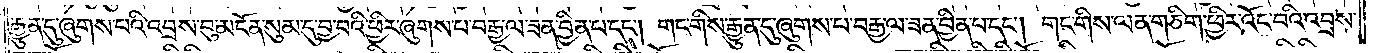རྒྱུན་དུ་ཞུགས་པའི་འབྲས་བུ་མངོན་སུམ་དུ་བྱ་བའི་ཕྱིར་ཞུགས་པ་བརྒྱ་ལ་ཟན་བྱིན་པ་དང༌། གང་གིས་རྒྱུན་དུ་ཞུགས་པ་བརྒྱ་ལ་ཟན་བྱིན་པ་དང༌། གང་གིས་ལན་གཅིག་ཕྱིར་འོང་བའི་འབྲས་
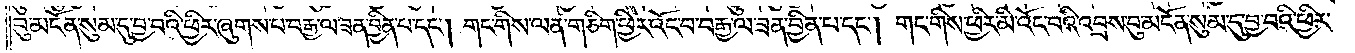བུ་མངོན་སུམ་དུ་བྱ་བའི་ཕྱིར་ཞུགས་པ་བརྒྱ་ལ་ཟན་བྱིན་པ་དང༌། གང་གིས་ལན་གཅིག་ཕྱིར་འོང་བ་བརྒྱ་ལ་ཟན་བྱིན་པ་དང༌། གང་གིས་ཕྱིར་མི་འོང་བའི་འབྲས་བུ་མངོན་སུམ་དུ་བྱ་བའི་ཕྱིར་
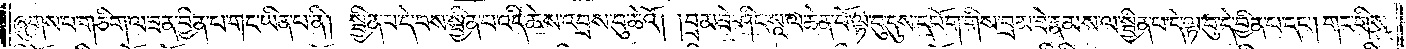ཞུགས་པ་གཅིག་ལ་ཟན་བྱིན་པ་གང་ཡིན་པ་ནི། སྦྱིན་པ་དེ་བས་སྦྱིན་པ་འདི་ཆེས་འབྲས་བུ་ཆེའོ། །བྲམ་ཟེ་ཤིང་སཱ་ལ་ཆེན་པོ་ལྟ་བུ་དུས་དཔོག་གིས་བྲམ་ཟེ་རྣམས་ལ་སྦྱིན་པ་དེ་ལྟ་བུ་དེ་བྱིན་པ་དང༌། གང་གིས་
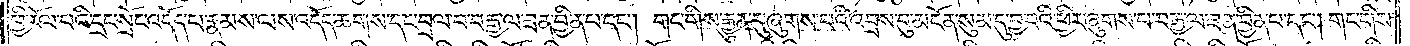ཕྱི་རོལ་པའི་དྲང་སྲོང་འདོད་པ་རྣམས་ལས་འདོད་ཆགས་དང་བྲལ་བ་བརྒྱ་ལ་ཟན་བྱིན་པ་དང༌། གང་གིས་རྒྱུན་དུ་ཞུགས་པའི་འབྲས་བུ་མངོན་སུམ་དུ་བྱ་བའི་ཕྱིར་ཞུགས་པ་བརྒྱ་ལ་ཟན་བྱིན་པ་དང༌། གང་གིས་
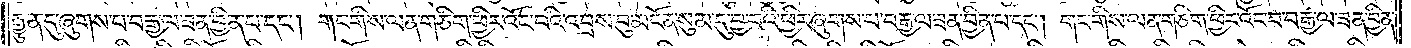རྒྱུན་དུ་ཞུགས་པ་བརྒྱ་ལ་ཟན་བྱིན་པ་དང༌། གང་གིས་ལན་གཅིག་ཕྱིར་འོང་བའི་འབྲས་བུ་མངོན་སུམ་དུ་བྱ་བའི་ཕྱིར་ཞུགས་པ་བརྒྱ་ལ་ཟན་བྱིན་པ་དང༌། གང་གིས་ལན་གཅིག་ཕྱིར་འོང་བ་བརྒྱ་ལ་ཟན་བྱིན་
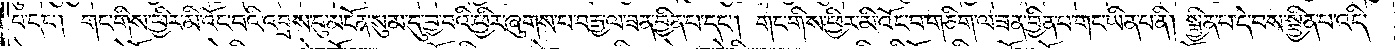པ་དང༌། གང་གིས་ཕྱིར་མི་འོང་བའི་འབྲས་བུ་མངོན་སུམ་དུ་བྱ་བའི་ཕྱིར་ཞུགས་པ་བརྒྱ་ལ་ཟན་བྱིན་པ་དང༌། གང་གིས་ཕྱིར་མི་འོང་བ་གཅིག་ལ་ཟན་བྱིན་པ་གང་ཡིན་པ་ནི། སྦྱིན་པ་དེ་བས་སྦྱིན་པ་འདི་
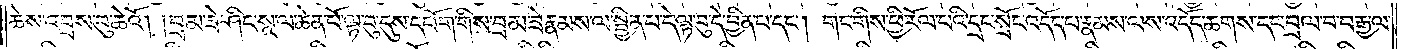ཆེས་འབྲས་བུ་ཆེའོ། །བྲམ་ཟེ་ཤིང་སཱ་ལ་ཆེན་པོ་ལྟ་བུ་དུས་དཔོག་གིས་བྲམ་ཟེ་རྣམས་ལ་སྦྱིན་པ་དེ་ལྟ་བུ་དེ་བྱིན་པ་དང༌། གང་གིས་ཕྱི་རོལ་པའི་དྲང་སྲོང་འདོད་པ་རྣམས་ལས་འདོད་ཆགས་དང་བྲལ་བ་བརྒྱ་ལ་
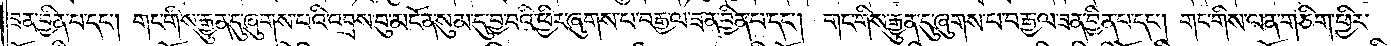ཟན་བྱིན་པ་དང༌། གང་གིས་རྒྱུན་དུ་ཞུགས་པའི་འབྲས་བུ་མངོན་སུམ་དུ་བྱ་བའི་ཕྱིར་ཞུགས་པ་བརྒྱ་ལ་ཟན་བྱིན་པ་དང༌། གང་གིས་རྒྱུན་དུ་ཞུགས་པ་བརྒྱ་ལ་ཟན་བྱིན་པ་དང༌། གང་གིས་ལན་གཅིག་ཕྱིར་
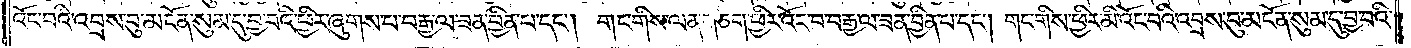འོང་བའི་འབྲས་བུ་མངོན་སུམ་དུ་བྱ་བའི་ཕྱིར་ཞུགས་པ་བརྒྱ་ལ་ཟན་བྱིན་པ་དང༌། གང་གིས་ལན་གཅིག་ཕྱིར་འོང་བ་བརྒྱ་ལ་ཟན་བྱིན་པ་དང༌། གང་གིས་ཕྱིར་མི་འོང་བའི་འབྲས་བུ་མངོན་སུམ་དུ་བྱ་བའི་
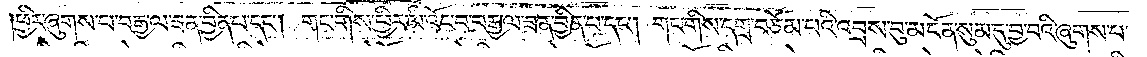།ཕྱིར་ཞུགས་པ་བརྒྱ་ལ་ཟན་བྱིན་པ་དང༌། གང་གིས་ཕྱིར་མི་འོང་བ་བརྒྱ་ལ་ཟན་བྱིན་པ་དང༌། གང་གིས་དགྲ་བཅོམ་པའི་འབྲས་བུ་མངོན་སུམ་དུ་བྱ་བའི་ཞུགས་པ་
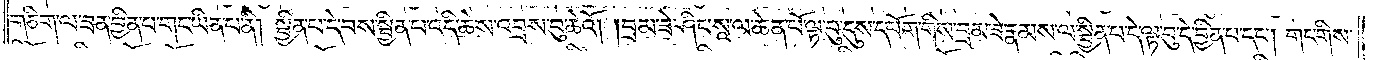གཅིག་ལ་ཟན་བྱིན་པ་གང་ཡིན་པ་ནི། སྦྱིན་པ་དེ་བས་སྦྱིན་པ་འདི་ཆེས་འབྲས་བུ་ཆེའོ། །བྲམ་ཟེ་ཤིང་སཱ་ལ་ཆེན་པོ་ལྟ་བུ་དུས་དཔོག་གིས་བྲམ་ཟེ་རྣམས་ལ་སྦྱིན་པ་དེ་ལྟ་བུ་དེ་བྱིན་པ་དང༌། གང་གིས་
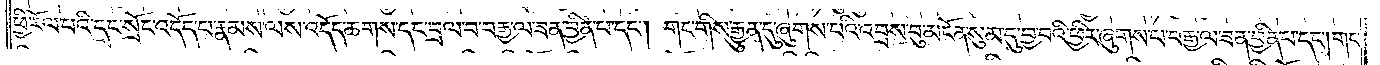ཕྱི་རོལ་པའི་དྲང་སྲོང་འདོད་པ་རྣམས་ལས་འདོད་ཆགས་དང་བྲལ་བ་བརྒྱ་ལ་ཟན་བྱིན་པ་དང༌། གང་གིས་རྒྱུན་དུ་ཞུགས་པའི་འབྲས་བུ་མངོན་སུམ་དུ་བྱ་བའི་ཕྱིར་ཞུགས་པ་བརྒྱ་ལ་ཟན་བྱིན་པ་དང༌། གང་
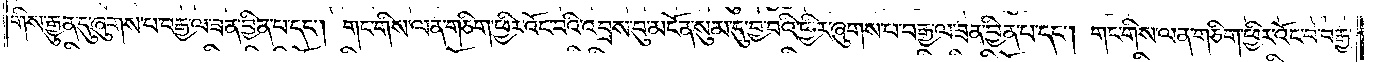གིས་རྒྱུན་དུ་ཞུགས་པ་བརྒྱ་ལ་ཟན་བྱིན་པ་དང༌། གང་གིས་ལན་གཅིག་ཕྱིར་འོང་བའི་འབྲས་བུ་མངོན་སུམ་དུ་བྱ་བའི་ཕྱིར་ཞུགས་པ་བརྒྱ་ལ་ཟན་བྱིན་པ་དང༌། གང་གིས་ལན་གཅིག་ཕྱིར་འོང་བ་བརྒྱ་
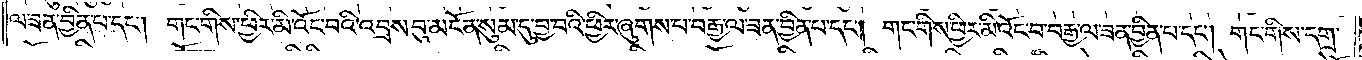ལ་ཟན་བྱིན་པ་དང༌། གང་གིས་ཕྱིར་མི་འོང་བའི་འབྲས་བུ་མངོན་སུམ་དུ་བྱ་བའི་ཕྱིར་ཞུགས་པ་བརྒྱ་ལ་ཟན་བྱིན་པ་དང༌། གང་གིས་ཕྱིར་མི་འོང་བ་བརྒྱ་ལ་ཟན་བྱིན་པ་དང༌། གང་གིས་དགྲ་
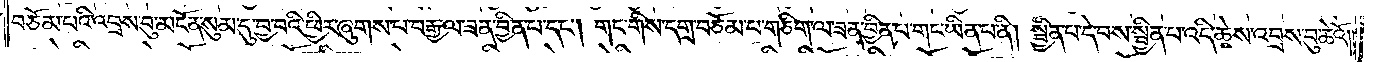བཅོམ་པའི་འབྲས་བུ་མངོན་སུམ་དུ་བྱ་བའི་ཕྱིར་ཞུགས་པ་བརྒྱ་ལ་ཟན་བྱིན་པ་དང༌། གང་གིས་དགྲ་བཅོམ་པ་གཅིག་ལ་ཟན་བྱིན་པ་གང་ཡིན་པ་ནི། སྦྱིན་པ་དེ་བས་སྦྱིན་པ་འདི་ཆེས་འབྲས་བུ་ཆེའོ༎
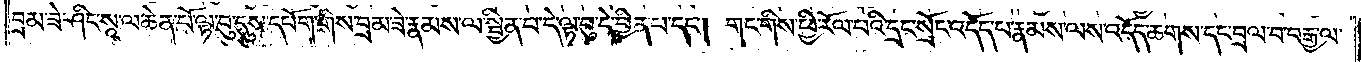བྲམ་ཟེ་ཤིང་སཱ་ལ་ཆེན་པོ་ལྟ་བུ་དུས་དཔོག་གིས་བྲམ་ཟེ་རྣམས་ལ་སྦྱིན་པ་དེ་ལྟ་བུ་དེ་བྱིན་པ་དང༌། གང་གིས་ཕྱི་རོལ་པའི་དྲང་སྲོང་འདོད་པ་རྣམས་ལས་འདོད་ཆགས་དང་བྲལ་བ་བརྒྱ་ལ་
